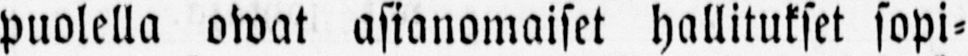puolella owat asianomaiset hallitukset sopi-
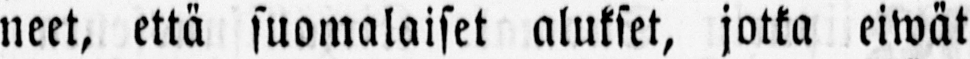neet, että suomalaiset alukset, jotka eiwät
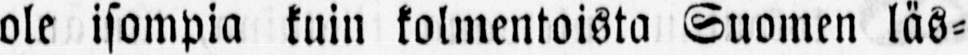ole isompia kuin kolmentoista Suomen läs-
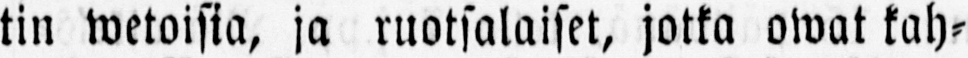tin wetoisia, ja ruotsalaiset, jotka owat kah-
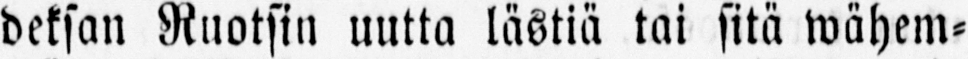deksan Ruotsin uutta lästiä tai sitä wähem-
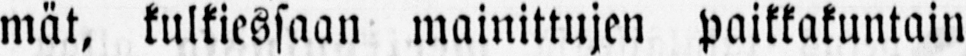mät, kulkiessaan mainittujen paikkakuntain
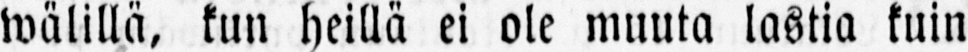wälillä, kun heillä ei ole muuta lastia kuin
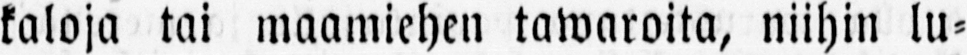kaloja tai maamiehen tawaroita, niihin lu-
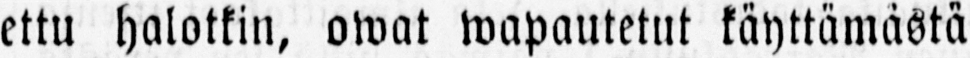ettu halotkin, owat wapautetut käyttämästä
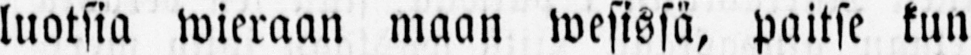luotsia wieraan maan wesissä, paitse kun
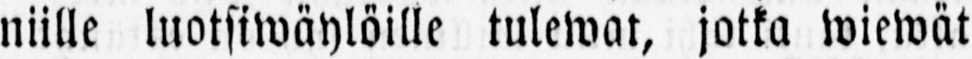niille luotsiwäylöille tulewat, jotka wiewät
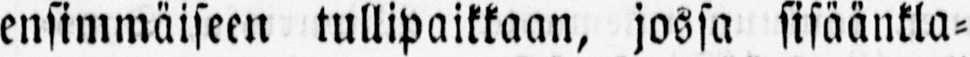ensimmäiseen tullipaikkaan, jossa sisäänkla-
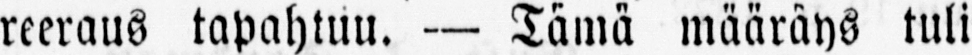reeraus tapahtuu. — Tämä määräys tuli
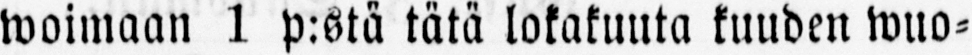woimaan 1 p:stä tätä lokakuuta kuuden wuo-
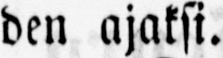den ajaksi.
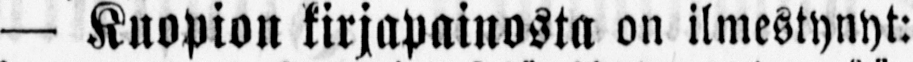— Kuopion kirjapainosta on ilmestynyt:
